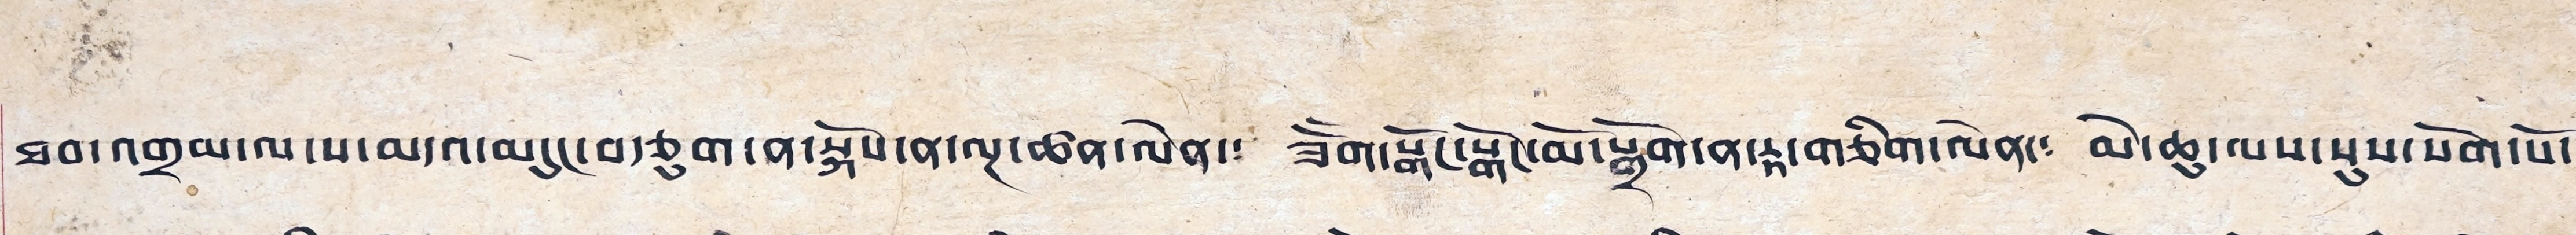ཐབ་འགྲམ་ལ་ས་མདའ་མདུང་བརྩུག་ན་སྐོས་ན་ལྔ་ཚན་ལེན་༴ ཟོགོ་སྒོང་སྒོང་མོ་སྒྲོག་ན་རྟ་གཅིག་ལེན་༴ མེ་ཆུ་ལས་སུས་སོག་པོ་
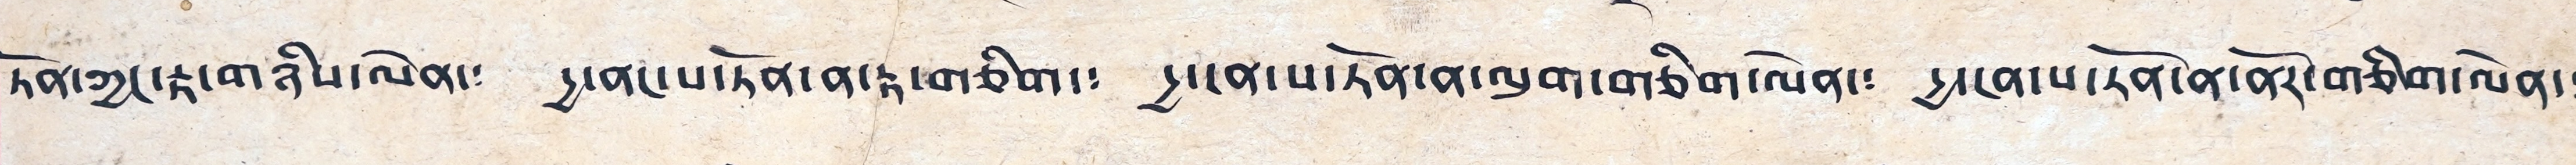ཏོན་ཀྱང་རྟ་གཉིས་ལེན་༴ དྱ་ནང་པ་ཏོན་ན་རྟ་གཅིག་༴ དྱ་ངན་པ་ཏོན་ན་ལུག་གཅིག་ལེན་༴ དྱ་ངག་པ་ཏོན་ན་ནོར་གཅིག་ལེན་༴
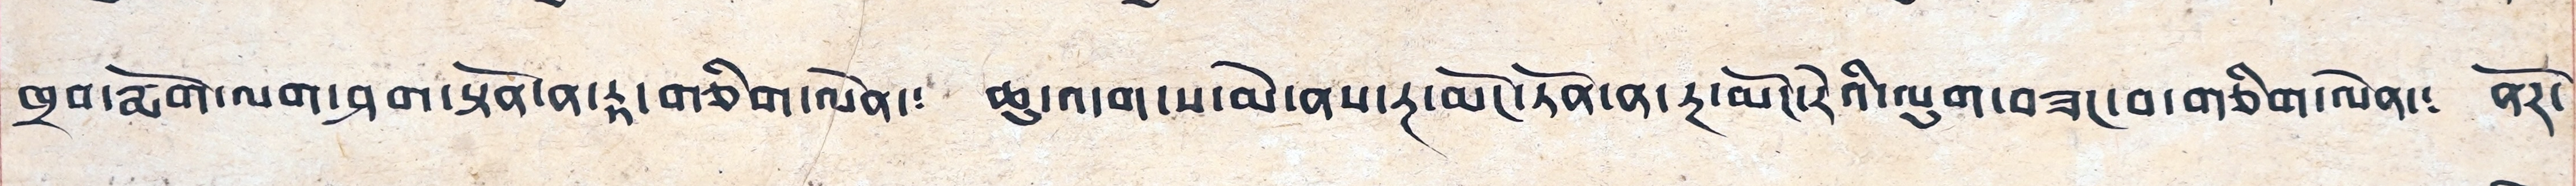ཁྲབ་རྨོག་ལག་ཤག་སྟོན་ན་རྟ་གཅིག་ལེན་༴ ཆུ་འདབ་ས་མེ་ནས་རྔ་མོང་ཏོན་ན་རྔ་མོང་རེའི་ལུག་བཟང་བ་གཅིག་ལེན་༴ ནོར་
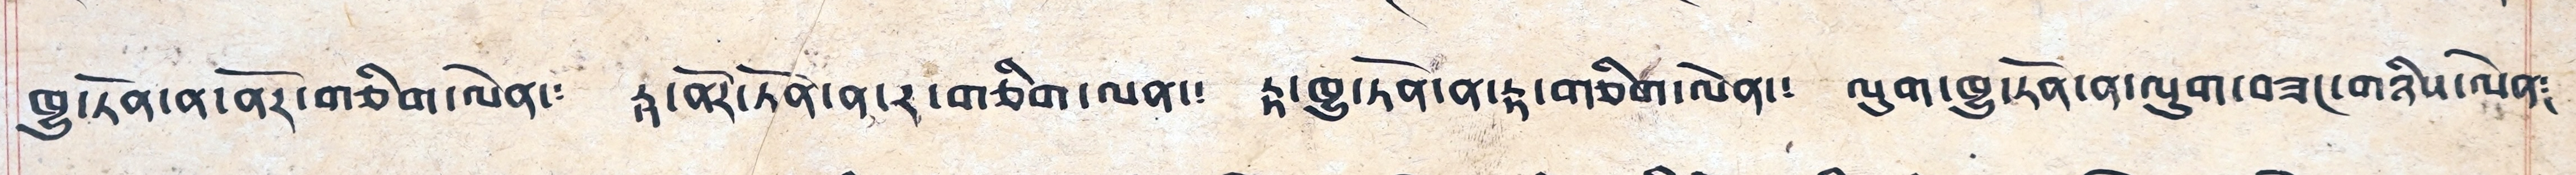ཁྱུ་ཏོན་ན་ནོར་གཅིག་ལེན་༴ རྟ་བོར་ཏོན་ན་ར་གཅིག་ལན་༴ རྟ་ཁྱུ་ཏོན་ན་རྟ་གཅིག་ལེན་༴ ལུག་ཁྱུ་ཏོན་ན་ལུག་བཟང་གཉིས་ལེན་༴
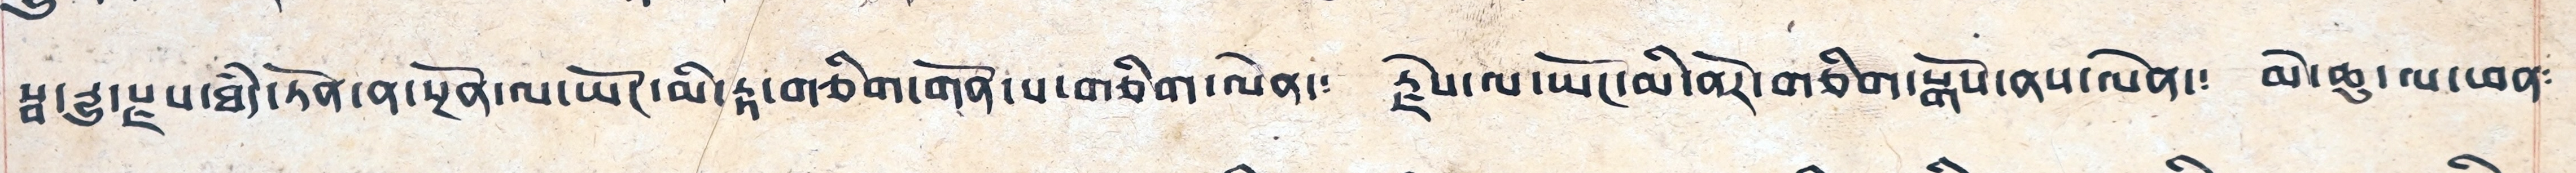སྦ་རྒྱུ་རྗེས་ཐཾད་ཏོན་ན་སྔོན་ལ་ཡོང་མི་རྟ་གཅིག་གོན་པ་གཅིག་ལེན་༴ རྗེས་ལ་ཡོང་མི་ནོར་གཅིག་སྒོས་ནས་ལེན་༴ མེ་ཆུ་ལ་ཕན༴
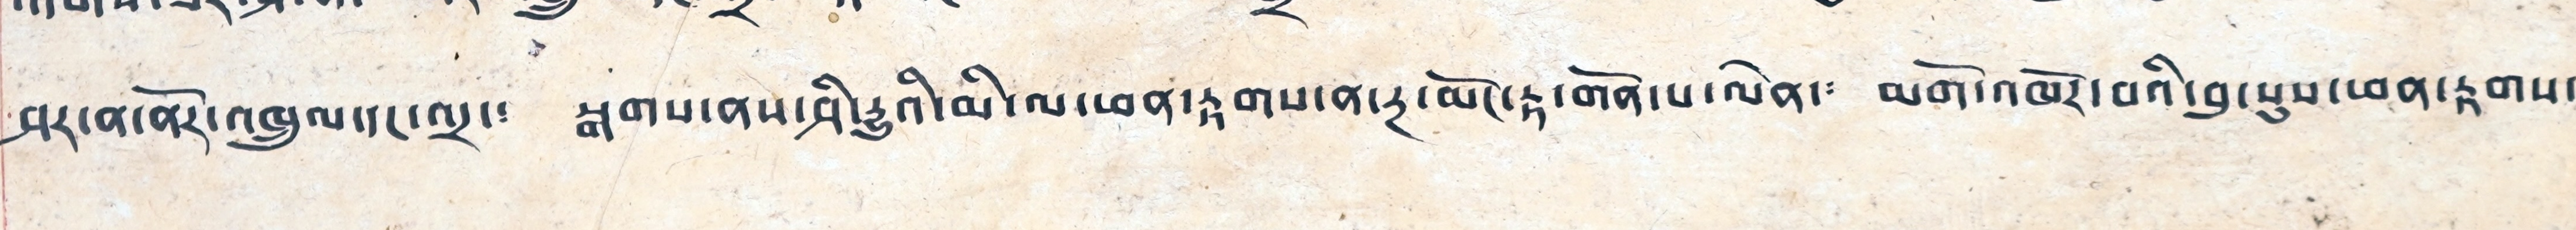ཤར་ན་ནོར་འཁྲུལ་དང་འདྲ་༴ སྒགས་ནས་ཤི་རྒྱུའི་མི་ལ་ཕན་རྟགས་ན་རྔ་མོང་རྟ་གོན་པ་ལེན་༴ མགོ་འཁོར་བའི་བུ་སུས་ཕན་རྟགས་
